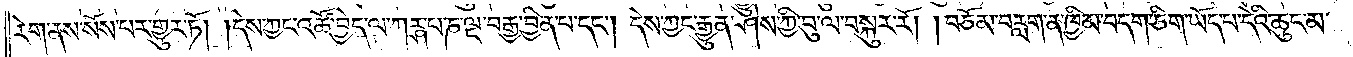རེག་ནས་སོས་པར་གྱུར་ཏོ། །དེས་ཀྱང་འཚོ་བྱེད་ལ་ཀརྴ་པ་ཎ་ལྔ་བརྒྱ་བྱིན་པ་དང༌། དེས་ཀྱང་རྒྱུན་ཤེས་ཀྱི་བུ་ལ་བསྐུར་རོ། །བཅོམ་བརླག་ན་ཁྱིམ་བདག་ཅིག་ཡོད་པ་དེའི་ཆུང་མ་
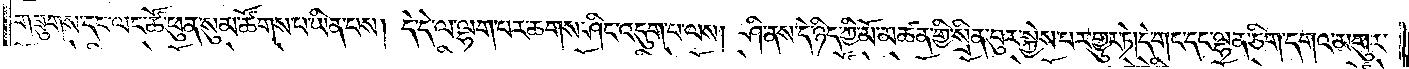གཟུགས་དང་ལང་ཚོ་ཕུན་སུམ་ཚོགས་པ་ཡིན་པས། དེ་དེ་ལ་ལྷག་པར་ཆགས་ཤིང་འདུག་པ་ལས། ཤི་ནས་དེ་ཉིད་ཀྱི་མོ་མཚན་གྱི་སྲིན་བུར་སྐྱེས་པར་གྱུར་ཏེ། དེ་གང་དང་ལྷན་ཅིག་དགའ་མགུར་
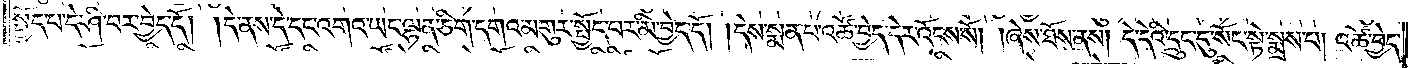སྤྱོད་པ་དེ་ཤི་བར་བྱེད་དོ། །དེ་ནས་དེ་དང་འགའ་ཡང་ལྷན་ཅིག་དགའ་མགུར་སྤྱོད་པར་མི་བྱེད་དོ། །དེས་སྨན་པ་འཚོ་བྱེད་དེར་འོངས་སོ། །ཞེས་ཐོས་ནས། དེ་དེའི་དྲུང་དུ་སོང་སྟེ་སྨྲས་པ། འཚོ་བྱེད་
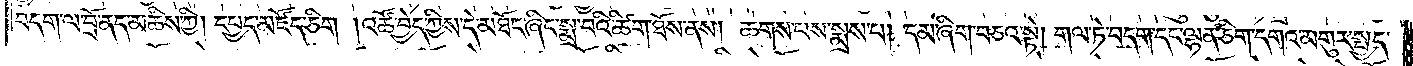བདག་ལ་བྲོ་ནད་མཆིས་ཀྱི། དཔྱད་མཛོད་ཅིག །འཚོ་བྱེད་ཀྱིས་དེ་མཐོང་ཞིང་སྨྲ་བའི་ཚིག་ཐོས་ནས། ཆགས་པས་སྨྲས་པ། དམ་ཞིག་བཅའ་སྟེ། གལ་ཏེ་བདག་དང་ལྷན་ཅིག་དགའ་མགུར་སྤྱད་
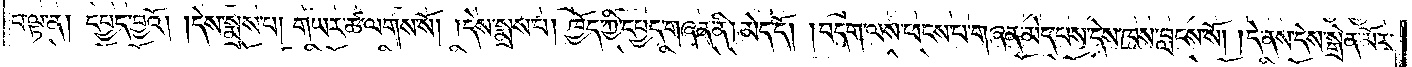པ་ལྟ་ན། དཔྱད་བྱའོ། །དེས་སྨྲས་པ། གཡར་ཚ་ལགས་སོ། །དེས་སྨྲས་པ། ཁྱོད་ཀྱི་དཔྱད་གཞན་ནི། མེད་དོ། །བདག་ལས་ཕངས་པ་གཞན་མེད་པས་དེས་ཁས་བླངས་སོ། །དེ་ནས་དེས་སྒྲོན་མོར་
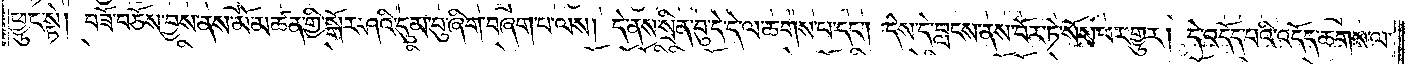ཕྱུང་སྟེ། བཟོ་བཅོས་བྱས་ནས་མོ་མཚན་གྱི་སྒོར་ཤའི་དུམ་བུ་ཞིག་བཞག་པ་ལས། དེ་ནས་སྲིན་བུ་དེ་དེ་ལ་ཆགས་པ་དང༌། དེས་དེ་བླངས་ནས་བོར་ཏེ་སོས་པར་གྱུར། དེ་འདོད་པའི་འདོད་ཆགས་ལ་
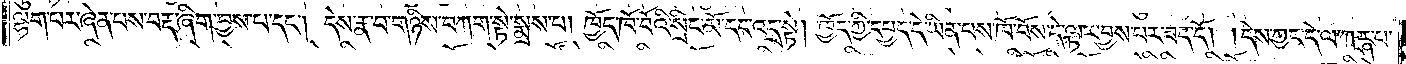ལྷག་པར་ཞེན་པས་བརྡ་ཞིག་བྱས་པ་དང༌། དེས་རྣ་བ་གཉིས་བཀག་སྟེ་སྨྲས་པ། ཁྱོད་ཁོ་བོའི་སྲིང་མོ་དང་འདྲ་སྟེ། ཁྱོད་ཀྱི་དཔྱད་དེ་ཡིན་པས་ཁོ་བོས་དེ་ལྟར་བྱས་པར་ཟད་དོ། །དེས་ཀྱང་དེ་ལ་ཀརྴ་པ
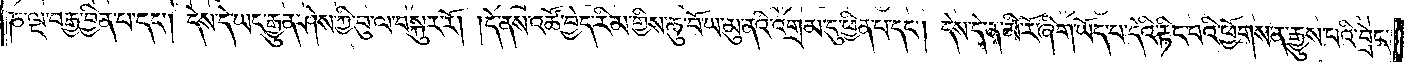ཎ་ལྔ་བརྒྱ་བྱིན་པ་དང༌། དེས་དེ་ཡང་རྒྱུན་ཤེས་ཀྱི་བུ་ལ་བསྐུར་རོ། །དེ་ནས་འཚོ་བྱེད་རིམ་གྱིས་ཆུ་བོ་ཡ་མུ་ནའི་འགྲམ་དུ་ཕྱིན་པ་དང༌། དེས་དེ་ན་མི་རོ་ཞིག་ཡོད་པ་དེའི་རྟིང་པའི་ཕྱོགས་ན་རྒྱུས་པའི་བྲེང་
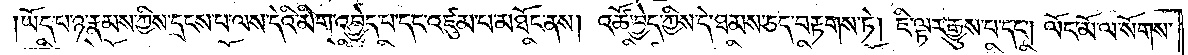།ཡོད་པ་ཉ་རྣམས་ཀྱིས་དྲངས་པ་ལས་དེའི་མིག་འབྱེད་པ་དང་འཛུམ་པ་མཐོང་ནས། འཚོ་བྱེད་ཀྱིས་དེ་ཐམས་ཅད་བརྟགས་ཏེ། ཇི་ལྟར་རྒྱུས་པ་དང༌། ལོང་མོ་ལ་སོགས་
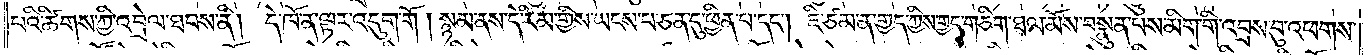པའི་ཚིགས་ཀྱི་འབྲེལ་ཐབས་ནི། དེ་ཁོ་ན་ལྟར་འདུག་གོ །སྙམ་ནས་དེ་རིམ་གྱིས་ཡངས་པ་ཅན་དུ་ཕྱིན་པ་དང༌། ཇི་ཙམ་ན་གྱད་ཀྱིས་གྱད་གཅིག་ཐལ་མོས་བསྣུན་པས་མིག་གི་འབྲས་བུ་འཕགས་
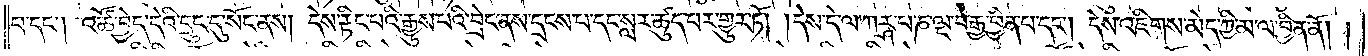པ་དང༌། འཚོ་བྱེད་དེའི་དྲུང་དུ་སོང་ནས། དེས་རྟིང་པའི་རྒྱུས་པའི་བྲེང་ནས་དྲངས་པ་དང་སླར་ཚུད་པར་གྱུར་ཏོ། །དེས་དེ་ལ་ཀཪྴ་པ་ཎ་ལྔ་བརྒྱ་བྱིན་པ་དང༌། དེས་འཇིགས་མེད་ཀྱི་མ་ལ་བྱིན་ནོ། །
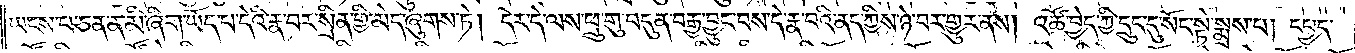ཡངས་པ་ཅན་ན་མི་ཞིག་ཡོད་པ་དེའི་རྣ་བར་སྲིན་གྱི་མེད་ཞུགས་ཏེ། དེར་དེ་ལས་ཕྲུ་གུ་བདུན་བརྒྱ་བྱུང་བས་དེ་རྣ་བའི་ནད་ཀྱིས་ཉེ་བར་གྱུར་ནས། འཚོ་བྱེད་ཀྱི་དྲུང་དུ་སོང་སྟེ་སྨྲས་པ། དཔྱད་
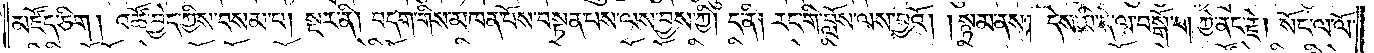མཛོད་ཅིག །འཚོ་བྱེད་ཀྱིས་བསམ་པ། སྔར་ནི། བདག་གིས་མཁན་པོས་བསྟན་པས་ལས་བྱས་ཀྱི། ད་ནི། རང་གི་བློས་ལས་བྱའོ། །སྙམ་ནས། དེས་མི་དེ་ལ་བསྒོ་བ། ཀྱེ་ནང་རྗེ། སོང་ལ་ལོ་
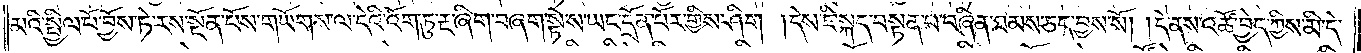མའི་སྤྱིལ་པོ་བྱོས་ཏེ་རས་སྔོན་པོས་གཡོགས་ལ་དེའི་འོག་ཏུ་རྔ་ཞིག་བཞག་སྟེ་ས་ཡང་དྲོན་པོར་གྱིས་ཤིག །དེས་ཇི་སྐད་བསྟན་པ་བཞིན་ཐམས་ཅད་བྱས་སོ། །དེ་ནས་འཚོ་བྱེད་ཀྱིས་མི་དེ་
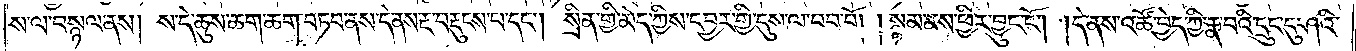ས་ལ་བསྙལ་ནས། ས་དེ་ཆུས་ཆག་ཆག་བཏབ་ནས་དེ་ནས་རྔ་བརྡུངས་པ་དང༌། སྲིན་གྱི་མེད་ཀྱིས་དབྱར་གྱི་དུས་ལ་བབ་བོ། །སྙམ་ནས་ཕྱིར་བྱུང་ངོ༌། །དེ་ནས་འཚོ་བྱེད་ཀྱི་རྣ་བའི་དྲུང་དུ་ཤའི་
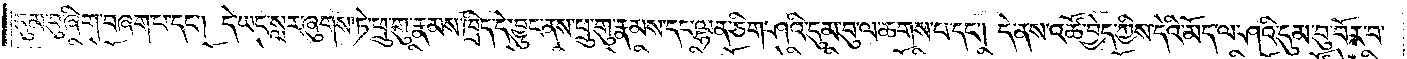དུམ་བུ་ཞིག་བཞག་པ་དང༌། དེ་ཡང་སླར་ཞུགས་ཏེ་ཕྲུ་གུ་རྣམས་ཁྲིད་དེ་བྱུང་ནས་ཕྲུ་གུ་རྣམས་དང༌། ལྷན་ཅིག་ཤའི་དུམ་བུ་ལ་ཆགས་པ་དང༌། དེ་ནས་འཚོ་བྱེད་ཀྱིས་དེའི་མོད་ལ་ཤའི་དུམ་བུ་བོར་བ་
